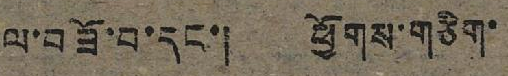ལ་བཟོ་བ་དང་། ཕྱོགས་གཅིག་
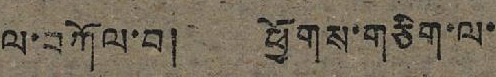ལ་བཀོལ་བ། ཕྱོགས་གཅིག་ལ་
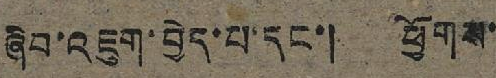ཞིབ་འཇུག་བྱེད་པ་དང་། ཕྱོགས་
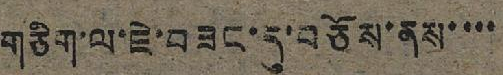གཅིག་ལ་ཇེ་བཟང་དུ་བཅོས་ནས་་་་
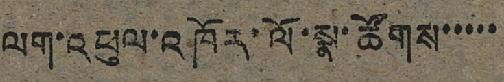ལག་འཕུལ་འཁོར་ལོ་སྣ་ཚོགས་་་་་
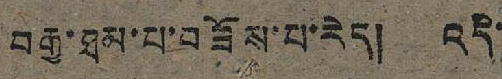བརྒྱ་ཐམ་པ་བཟོས་པ་རེད། འདི་
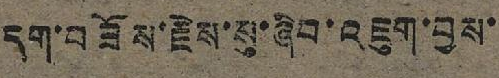དག་བཟོས་རྗེས་སུ་ཞིབ་འཇུག་བྱས་
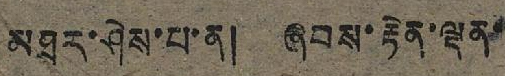མཐར་ཤེས་པ་ན། ཞབས་རྟེན་ལྡན་
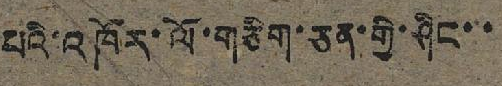པའི་འཁོར་ལོ་གཅིག་ཅན་གྱི་ཤིང་་
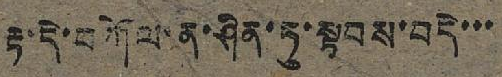རྟ་དེ་བཀོལ་ན་ཤིན་ཏུ་སྟབས་བདེ་་་
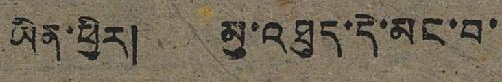ཡིན་ཕྱིར། མུ་འཐུད་དེ་མང་བ་
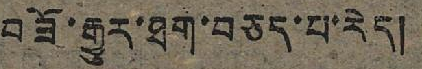བཟོ་རྒྱུར་ཐག་བཅད་པ་རེད།
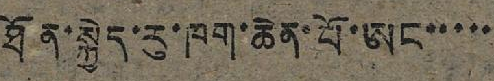ཐོན་སྐྱེད་རུ་ཁག་ཆེན་པོ་ཨང་་་་་
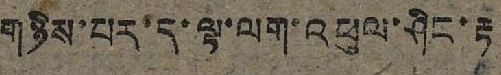གཉིས་པར་ད་ལྟ་ལག་འཕུལ་ཤིང་རྟ
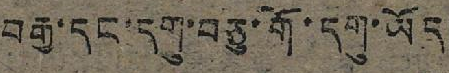བརྒྱ་དང་དགུ་བཅུ་གོ་དགུ་ཡོད།
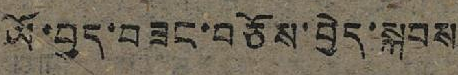ཡོ་བྱད་བཟང་བཅོས་བྱེད་སྐབས
